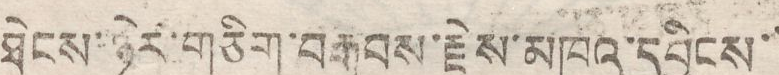ཐེངས་ཉེར་གཅིག་བརྒྱབས་རྗེས་མཁའ་དབྱིངས་
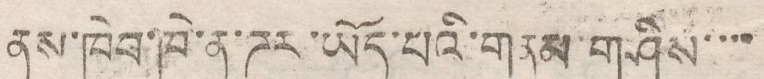ནས་ཁེབ་ཁེ་ན་ཌར་ཡོད་པའི་གནས་གཤིས་་་་
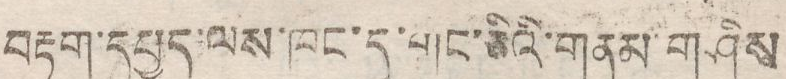བརྟག་དཔྱད་ལས་ཁང་དུ་གང་ཅིའི་གནམ་གཤིས
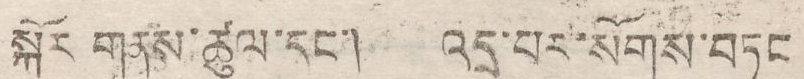སྐོར གནས་ཚུལ་དང་། འདྲ་པར་སོགས་བཏང
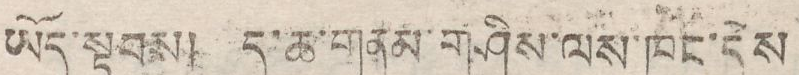ཡོད་སྟབས། ད་ཆ་གནམ་གཤིས་ལས་ཁང་དེས་
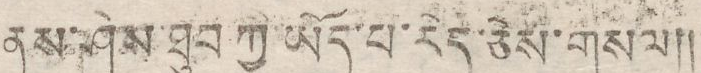ནས་ཤེས་ཐུབ་ཀྱི་ཡོད་པ་རེད་ཅེས་གསལ།།
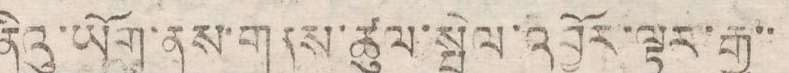ནིའུ་ཡོག་ནས་གནས་ཚུལ་སྤེལ་འབྱོར་ལྟར་རྒྱ་་
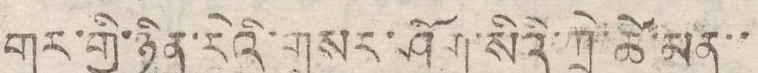གར་གྱི་ཉིན་རེའི་གསར་ཤོག་སིའི་ཀྲེ་ཚེ་མན་་
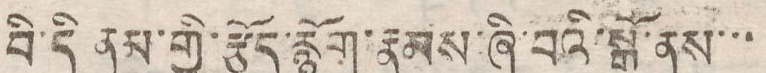བི་དི ནམ་གྱི་རྩོད་རྙོགས་རྣམས་ཞི་བའི་སྒོ་ནས་་་
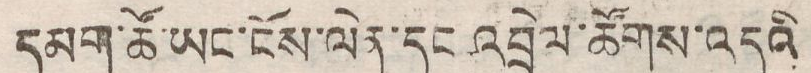དམག་ཚོ་ཡང་ངོས་ལེན་དང་འབྲེལ་ཚོགས་འདུའི
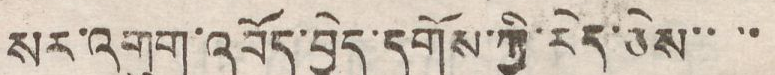སར་འགུག་འབོད་བྱེད་དགོས་ཀྱི་རེད་ཅེས་་་་
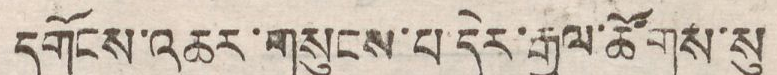དགོངས་འཆར་གསུངས་པ་དེར་རྒྱལ་ཚོགས་སུ
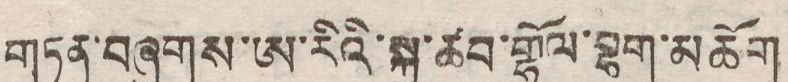གཏན་བཞུགས་ཨ་རིའི་སྐུ་ཚབ་གྷོལ་བྷག་མཆོག
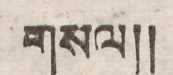གསལ།།
